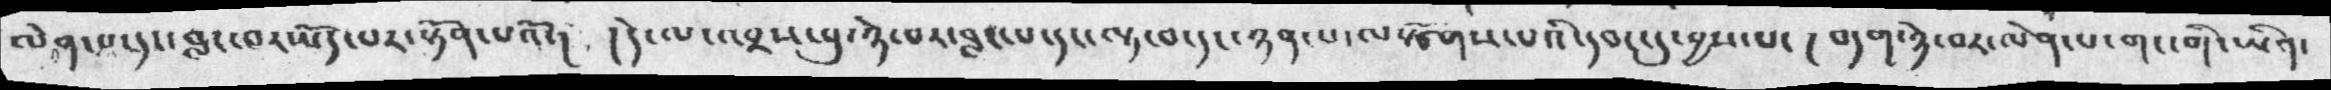ལེན་པ་དང་བླང་བར་ཡོད་པར་སྟོན་པའོ་།  །དེ་ལ་འབྲས་བུ་ཉེ་བར་བླང་པ་དང་ལྟ་བ་དང་ཉན་པ་ལསྩོགས་པའི་དབང་དུ་བྱས་པ་།  བདག་ཉེ་བར་ལེན་པ་གང་གི་ཡིན་
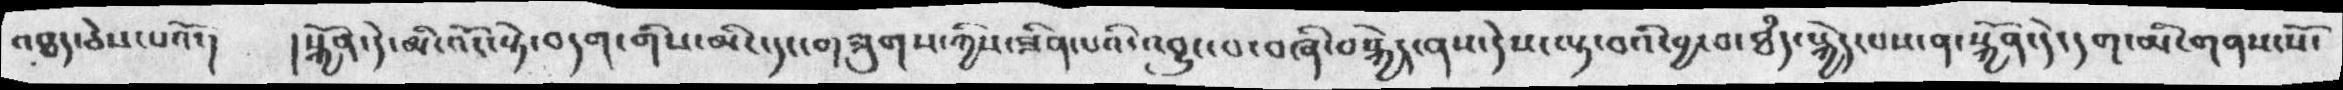འཐད་ཅེས་པའོ་།  །སྐྱོན་དེ་མི་འོང་སྟེ་བདག་གིས་མིང་དང་གཟུགས་ཀྱིས་ཟིན་པའི་འབྱུང་བ་བཞི་བསྐྱེད་ནས་དེས་ལྟ་བའི་བྱ་བ་ཐཾད་སྐྱེད་པས་ན་སྐྱོན་དེ་དག་མི་གནས་སོ་
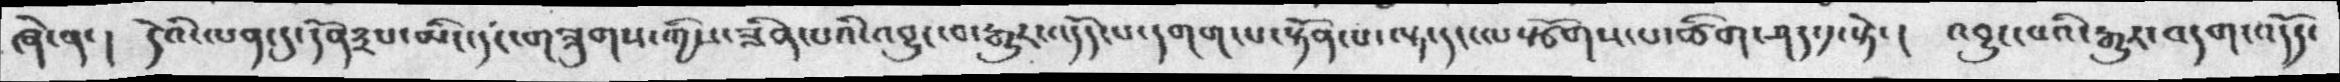ཞེ་ན་། དེའི་ལན་དུ་དོན༣པ་མིང་དང་གཟུགས་ཀྱིས་ཟིན་པའི་འབྱུང་བ་རྒྱུར་འདོད་པ་དགག་པ་སྟོན་པ་ལྟ་དང་ལསྩོགས་པ་ཚིག་ཤད་༡་སྟེ་། འབྱུང་པའི་རྒྱུར་བདག་འདོད་
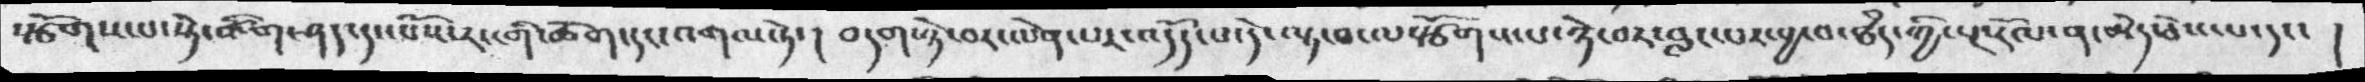སྩོགས་པ་སྟེ་ཚིག་ཤད་དང་པོས་རང་གི་ཆོག་དང་འགལ་ཏེ་།  བདག་ཉེ་བར་ལེན་པར་འདོད་པ་དེ་ལྟ་བ་ལསྩོགས་པ་ཉེ་བར་བླང་པར་བྱ་བ་ཐཾད་ཀྱི་སྔ་རོལ་ན་མེད་ཅེས་པ་དང་ །
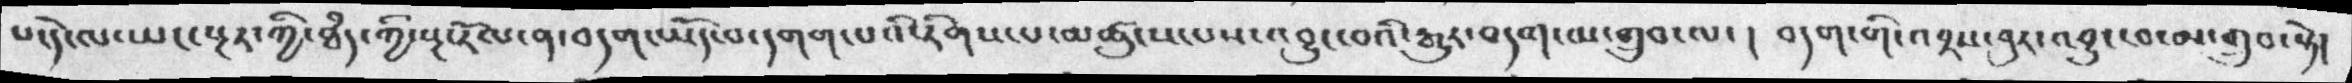པ་དེ་ལ་ཡང་སྔར་ཀྱི་ཐཾད་ཀྱི་སྔ་རོལ་ན་བདག་ཡོད་བ་དགག་པའི་རིགས་པ་མཚུངས་པས་འབྱུང་བའི་རྒྱུར་བདག་མ་གྲུབ་ལ་། བདག་གི་འབྲས་བུར་འབྱུང་བ་མ་གྲུབ་སྟེ།
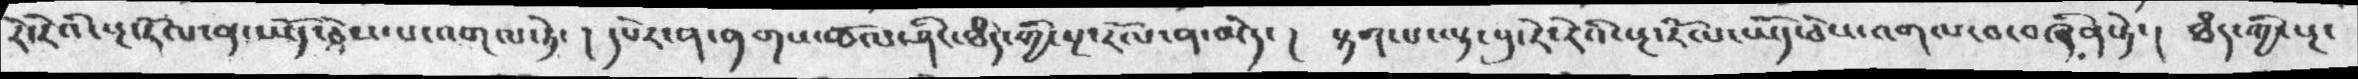རེ་རེའི་སྔ་རོལ་ན་ཡོད་ཅེས་པ་འགལ་ཏེ་།  དཔེར་ན་ནགས་ཚལ་ཤིང་ཐཾད་ཀྱི་སྔ་རོལ་ན་མེད་།  སྟག་པ་ལྟ་བུ་རེ་རེའི་སྔ་རོལ་ཡོད་ཅེས་འགལ་བ་བཞིན་ཏེ་། ཐཾད་ཀྱི་སྔ་
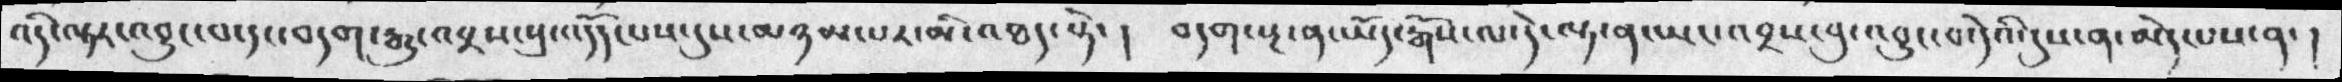འདི་ལྟར་འབྱུང་བ་དང་བདག་རྒྱུ་འབྲས་སུ་འདོད་པས་དུས་མཉམ་པར་མི་འཐད་སྟེ་།  བདག་སྔ་ན་ཡོད་རྒོས་ལ་དེ་ལྟ་ན་ཡང་འབྲས་བུ་འབྱུང་བ་དེའི་དུས་ན་མེད་པས་ན་།
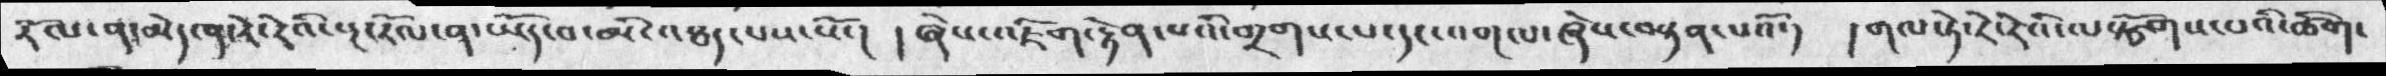རོལ་ན་མེད་ན་རེ་རེའི་སྔ་རོལ་ན་ཡོད་བ་མི་འཐད་པས་སོ་།  །ཞེས་འཇིག་རྟེན་པའི་གྲགས་པ་དང་འགལ་ཞེས་བསྟན་པའོ་།  །གལ་ཏེ་རེ་རེའི་ལསྩོགས་པའི་ཚིག་
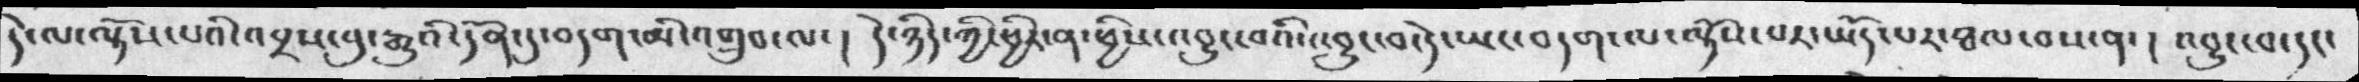དེ་ལ་ལྟོས་པའི་འབྲས་བུ་རྒྱུའི་དོན་དུ་བདག་མི་འགྲུབ་ལ་།  དེ་ཉིད་ཀྱི་ཕྱིར་ན་ཕྱིས་འབྱུང་བའི་འབྱུང་བ་དེ་ཡང་བདག་ལ་ལྟོས་པར་ཡོད་པར་ཐལ་བས་ན་། འབྱུང་བ་དང་
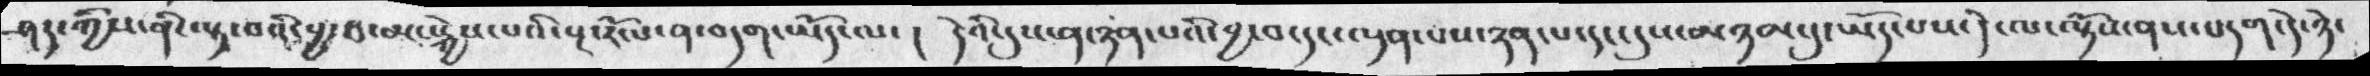ཤད་ཀྱིས་ནི་ལྟ་བའི་བྱ་ཐ་མ་སྐྱེས་པའི་སྔ་རོལ་ན་བདག་ཡོད་ལ་།  དེའི་དུས་ན་ཉན་པའི་བྱ་བ་དང་ལྡན་པས་ཉན་པ་དང་དུས་མཉམ་དུ་ཡོད་པས་དེ་ལ་ལྟོས་ནས་བདག་དེ་ཉེ་
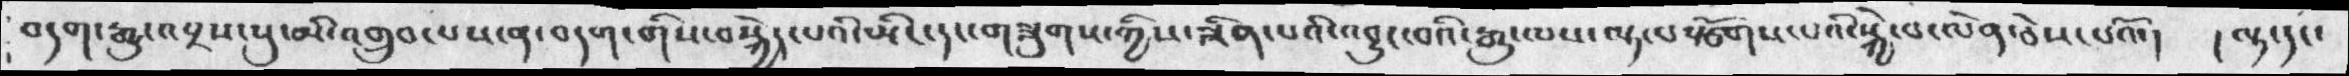བདག་རྒྱ་འབྲས་སུ་མི་འགྲུབ་པས་ན་བདག་གིས་བསྐྱེད་པའི་མིང་དང་གཟུགས་ཀྱིས་ཟིན་པའི་འབྱུང་བའི་རྒྱུ་ལས་ལྟ་བསྩོགས་པའི་སྐྱེ་བ་ལེན་ཅེས་པའོ་།  །ལྟ་དང་
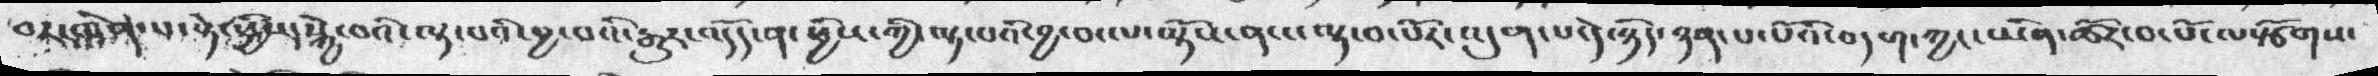བར་ལེན་པ་སྟེ་ཕྱིས་སྐྱེ་བའི་ལྟ་བའི་བྱ་བའི་རྒྱུར་འདོད་ན་ཕྱིས་ཀྱི་ལྟ་བའི་བྱ་བ་ལ་ལྟོས་ནས་ལྟ་བ་པོར་འདུག་པ་དེ་ཉིད་ཉན་པ་པོའི་བདག་ཀྱང་ཡིན་ཚོར་བ་པོ་ལསྩོགས་
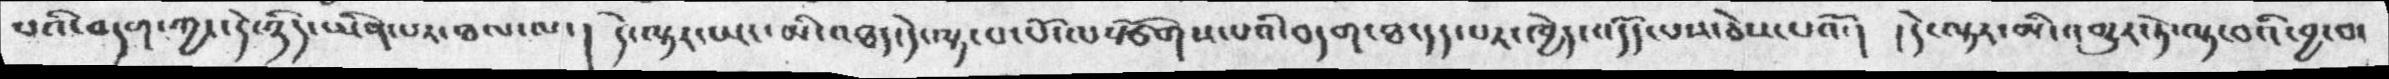པའི་བདག་ཀྱང་དེ་ཉིད་ཡིན་པར་ཐལ་ལ་།  དེ་ལྟར་ཡང་མི་འཐད་དེ་ལྟ་བ་པོ་ལསྩོགས་པི་བདག་ཐ་དད་པར་ཁྱེད་འདོད་པས་ཅེས་པའོ་།  །དེ་ལྟར་མི་འགྱུར་ཏེ་ལྟ་བའི་བྱ་བ་
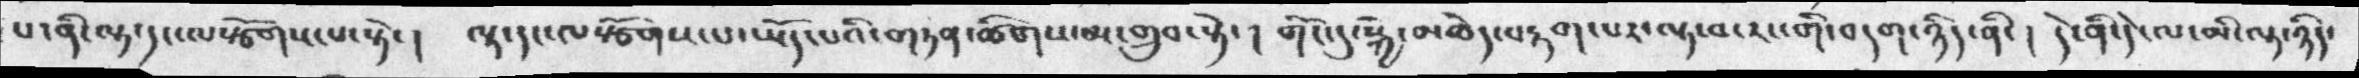པ་ནི་ལྟ་དང་ལསྩོགས་པ་སྟེ་།  ལྟ་དང་ལསྩོགས་པ་ཡོད་པའི་གཏན་ཚིགས་མ་གྲུབ་སྟེ་།  གོང་དུ་སྐྱེ་མཆེད་བརྟག་པར་ལྟ་བ་རང་གི་བདག་ཉིད་ནི་།  དེ་ནི་དེ་ལ་མི་ལྟ་ཉིད་
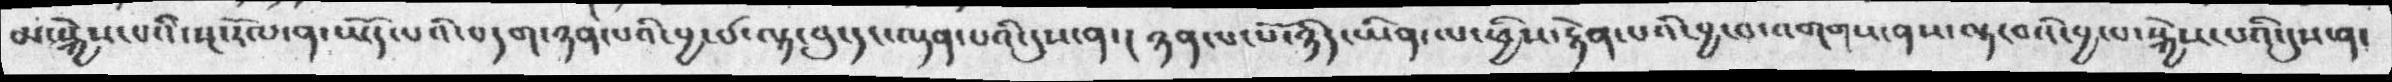མ་སྐྱེས་པའི་སྔ་རོལ་ན་ཡོད་པའི་བདག་ཉན་པའི་བྱ་བ་ལྟ་བུ་དང་ལྡན་པའི་དུས་ན་། ཉན་པ་པོ་ཉིད་ཡིན་པ་ཕྱིས་རྟེན་པའི་བྱ་བ་འགགས་ནས་ལྟ་བའི་བྱ་བ་སྐྱེས་པའི་དུས་ན་
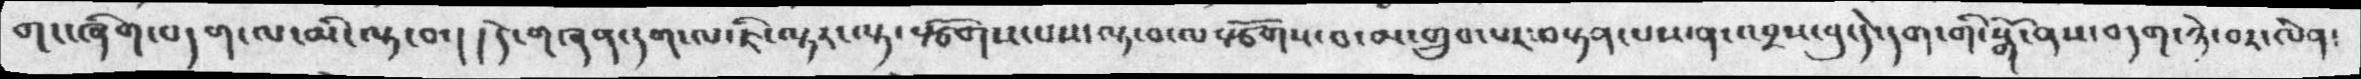གང་ཞིག་བདག་ལ་མི་ལྟ་བ་། །དེ་གཞན་དག་ལ་ཇི་ལྟར་ལྟ་སྩོགས་པས་ལྟ་བ་ལསྩོགས་བ་མ་གྲུབ་པར་བསྟན་པས་ན་འབྲས་བུ་དེ་དག་གི་སྒོ་ནས་བདག་ཉེ་བར་ལེན་
